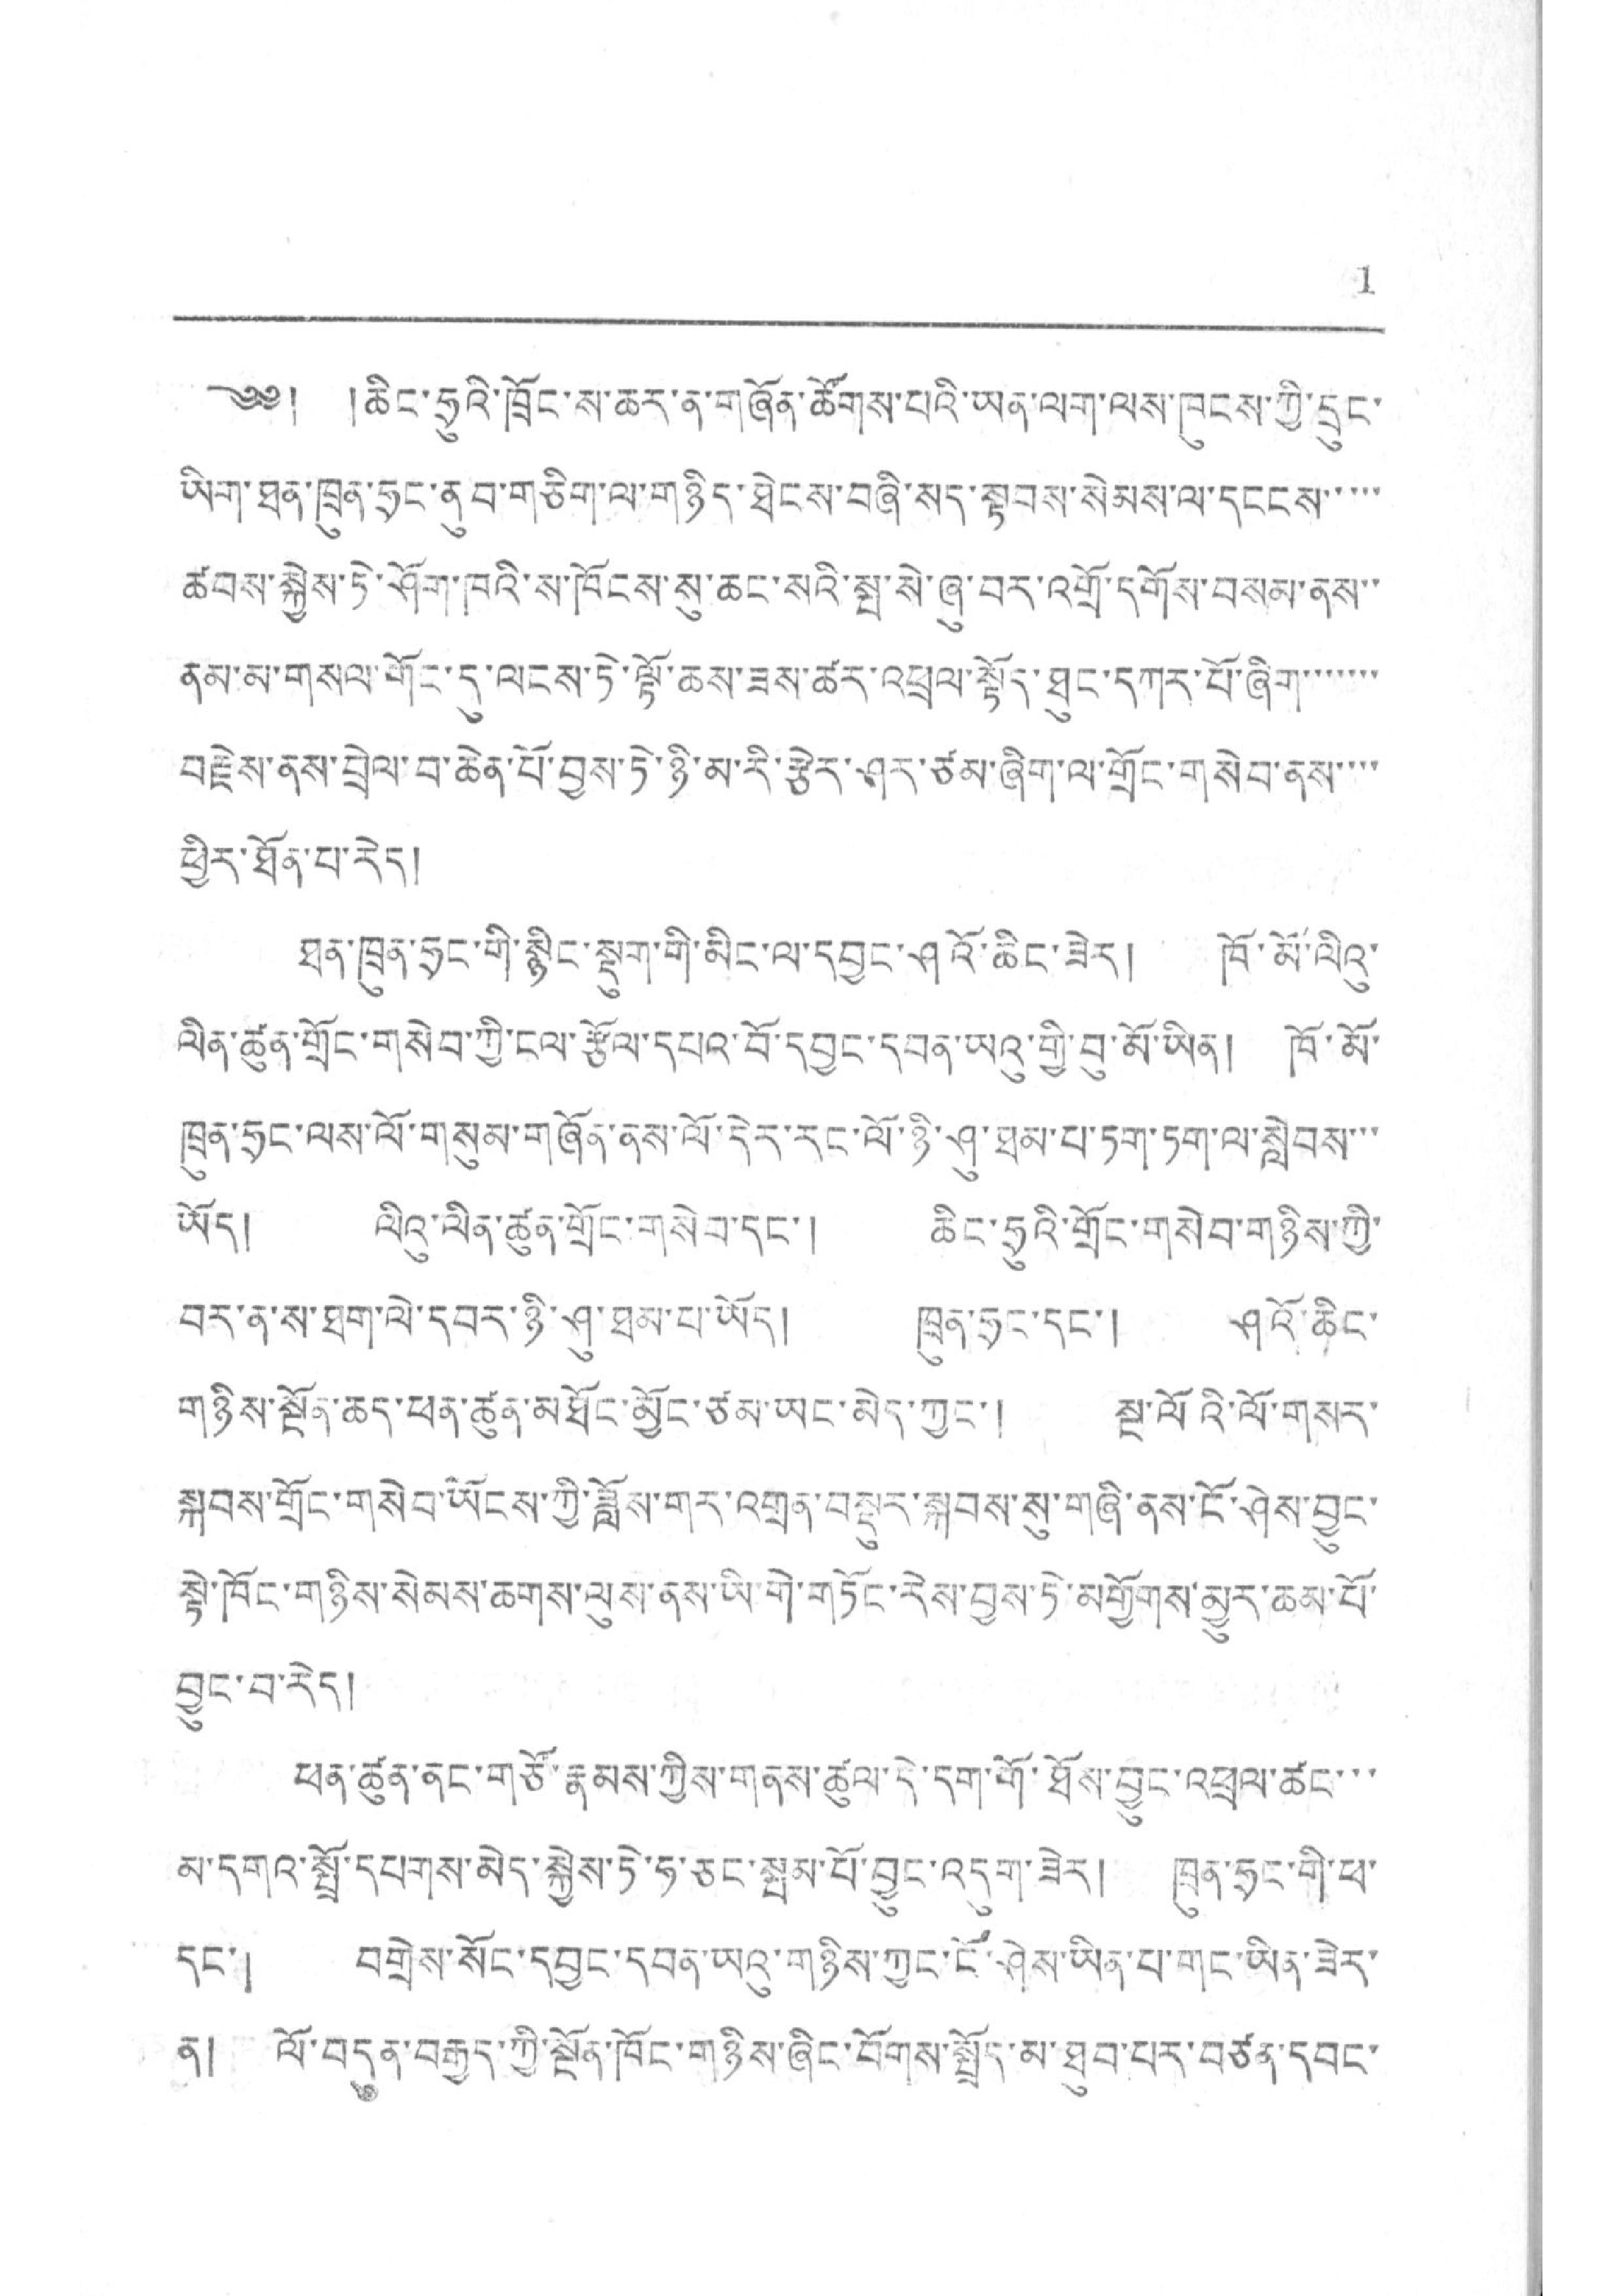1
༄༅། །ཆིང་ཧྲུའི་ཁྲོང་ས་ཆར་ན་གཞོན་ཚོགས་པའི་ཡན་ལག་ལས་ཁུངས་ཀྱི་དྲུང་
ཡིག་ཐན་ཁྲུན་ཧྲང་ནུབ་གཅིག་ལ་གཉིད་ཐེངས་བཞི་སད་སྟགས་སེམས་ལ་དངངས་་་་་
ཚབས་སྐྱེས་ཏེ་ཤོག་ཁའི་ས་ཁོངས་སུ་ཆང་སའི་སྤ་སེ་ཞུ་བར་འགྲོ་དགོས་བསམ་ནས་་
ནམ་མ་གསལ་གོང་དུ་ལངས་ཏེ་ལྟོ་ཆས་ཟས་ཚར་འཕྲལ་སྟོད་ཐུང་དཀར་པོ་ཞིག་་་་་་་
བརྗེས་ནས་བྲེལ་བ་ཆེན་པོ་བྱས་ཏེ་ཉི་མ་རི་རྩེར་ཤར་ཙམ་ཞིག་ལ་གྲོང་གསེབ་ནས་་་་
ཕྱིར་ཐོན་པ་རེད།
ཐན་ཁྲུན་ཧྲང་གི་སྙིང་སྡུག་གི་མིང་ལ་དབྱང་ཤའོ་ཆིང་ཟེར། ཁོ་མོ་ལིའུ་
ལིན་ཚུན་གྲོང་གསེབ་ཀྱི་ངལ་རྩོལ་དཔའ་བོ་དབྱང་དབན་ཡའུ་གྱི་བུ་མོ་ཡིན། ཁོ་མོ་
ཁྲུན་ཧྲང་ལས་ལོ་གསུམ་གཞོན་ནས་ལོ་དེར་རང་ལོ་ཉི་ཤུ་ཐམ་པ་ཏག་ཏག་ལ་སླེབས་་་
ཡོད། ལིའུ་ལིན་ཚུན་གྲོང་གསེབ་དང་། ཆིང་ཧྲུའི་གྲོང་གསེབ་གཉིས་ཀྱི་
བར་ན་ས་ཐག་ལེ་དབར་ཉི་ཤུ་ཐམ་པ་ཡོད། ཁྲུན་ཧྲང་དང་། ཤའོ་ཆིང་
གཉིས་སྔོན་ཆད་ཕན་ཚུན་མཐོང་མྱོང་ཙམ་ཡང་མེད་ཀྱང་། སྔ་ལོའི་ལོ་གསར་
སྐབས་གྲོང་གསེབ་ཡོངས་ཀྱི་ཟློས་གར་འགྲན་བསྡུར་སྐབས་སུ་གཞི་ནས་ངོ་ཤེས་བྱུང་
སྟེ་ཁོང་གཉིས་སེམས་ཆགས་ལུས་ནས་ཡི་གེ་གཏོང་རེས་བྱས་ཏེ་མགྱོགས་མྱུར་ཆམ་པོ་
བྱུང་བ་རེད།
ཕན་ཚུན་ནང་གཙོ་རྣམས་ཀྱིས་གནས་ཚུལ་དེ་དག་གོ་ཐོས་བྱུང་འཕྲལ་ཚང་་་
མ་དགའ་སྤྲོ་དཔགས་མེད་སྐྱེས་ཏེ་ཧ་ཅང་སྤམ་པོ་བྱུང་འདུག་ཟེར། ཁྱུན་ཧྲང་གི་ཕ་
དང་། བགྲེས་སོང་དབྱང་དབན་ཡའུ་གཉིས་ཀྱང་ངོ་ཤེས་ཡིན་པ་གང་ཡིན་ཟེར་
ན། ལོ་བདུན་བརྒྱད་ཀྱི་སྔོན་ཁོང་གཉིས་ཞིང་བོགས་སྤྲོད་མ་ཐུབ་པར་བཙན་དབང་
